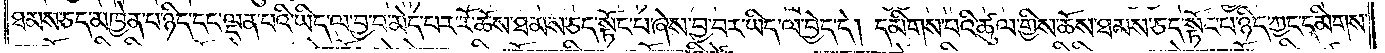ཐམས་ཅད་མཁྱེན་པ་ཉིད་དང་ལྡན་པའི་ཡིད་ལ་བྱ་བ་མེད་པར་རོ་ཆོས་ཐམས་ཅད་སྟོང་པ་ཞེས་བྱ་བར་ཡིད་ལ་བྱེད་དེ། དམིགས་པའི་ཚུལ་གྱིས་ཆོས་ཐམས་ཅད་སྟོང་པ་ཉིད་ཀྱང་དམིགས་
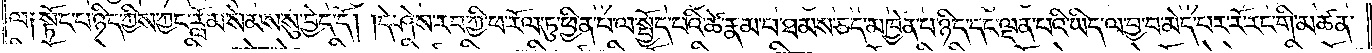ལ༑ སྟོང་པ་ཉིད་ཀྱིས་ཀྱང་རློམ་སེམས་སུ་བྱེད་དོ། །དེ་ཤེས་རབ་ཀྱི་ཕ་རོལ་ཏུ་ཕྱིན་པ་ལ་སྤྱོད་པའི་ཚེ་རྣམ་པ་ཐམས་ཅད་མཁྱེན་པ་ཉིད་དང་ལྡན་པའི་ཡིད་ལ་བྱ་བ་མེད་པར་རོ་རང་གི་མཚན་
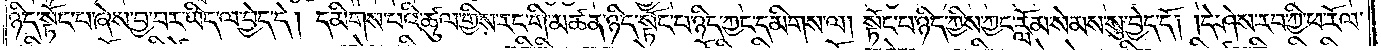ཉིད་སྟོང་པ་ཞེས་བྱ་བར་ཡིད་ལ་བྱེད་དེ། དམིགས་པའི་ཚུལ་གྱིས་རང་གི་མཚན་ཉིད་སྟོང་པ་ཉིད་ཀྱང་དམིགས་ལ། སྟོང་པ་ཉིད་ཀྱིས་ཀྱང་རློམ་སེམས་སུ་བྱེད་དོ། །དེ་ཤེས་རབ་ཀྱི་ཕ་རོལ་
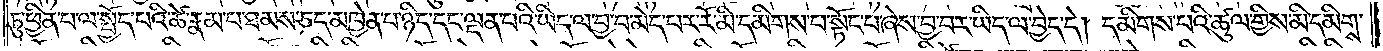ཏུ་ཕྱིན་པ་ལ་སྤྱོད་པའི་ཚེ་རྣམ་པ་ཐམས་ཅད་མཁྱེན་པ་ཉིད་དང་ལྡན་པའི་ཡིད་ལ་བྱ་བ་མེད་པར་རོ་མི་དམིགས་པ་སྟོང་པ་ཞེས་བྱ་བར་ཡིད་ལ་བྱེད་དེ། དམིགས་པའི་ཚུལ་གྱིས་མི་དམིགས་
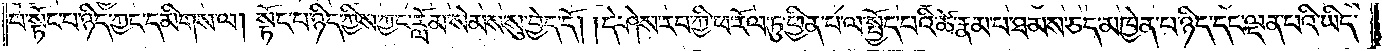པ་སྟོང་པ་ཉིད་ཀྱང་དམིགས་ལ། སྟོང་པ་ཉིད་ཀྱིས་ཀྱང་རློམ་སེམས་སུ་བྱེད་དོ། །དེ་ཤེས་རབ་ཀྱི་ཕ་རོལ་ཏུ་ཕྱིན་པ་ལ་སྤྱོད་པའི་ཚེ་རྣམ་པ་ཐམས་ཅད་མཁྱེན་པ་ཉིད་དང་ལྡན་པའི་ཡིད་
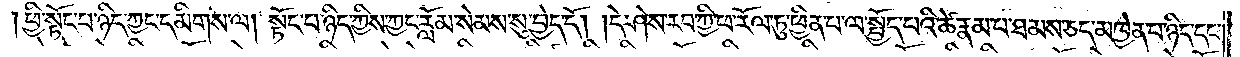ཕྱི་སྟོང་པ་ཉིད་ཀྱང་དམིགས་ལ། སྟོང་པ་ཉིད་ཀྱིས་ཀྱང་རློམ་སེམས་སུ་བྱེད་དོ། །དེ་ཤེས་རབ་ཀྱི་ཕ་རོལ་ཏུ་ཕྱིན་པ་ལ་སྤྱོད་པའི་ཚེ་རྣམ་པ་ཐམས་ཅད་མཁྱེན་པ་ཉིད་དང་
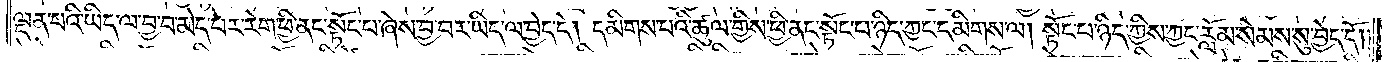ལྡན་པའི་ཡིད་ལ་བྱ་བ་མེད་པར་རེག་ཕྱི་ནང་སྟོང་པ་ཞེས་བྱ་བར་ཡིད་ལ་བྱེད་དེ། དམིགས་པའི་ཚུལ་གྱིས་ཕྱི་ནང་སྟོང་པ་ཉིད་ཀྱང་དམིགས་ལ། སྟོང་པ་ཉིད་ཀྱིས་ཀྱང་རློམ་སེམས་སུ་བྱེད་དོ༎
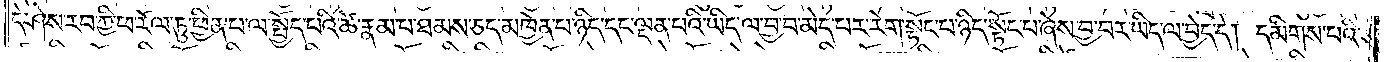དེ་ཤེས་རབ་ཀྱི་ཕ་རོལ་ཏུ་ཕྱིན་པ་ལ་སྤྱོད་པའི་ཚེ་རྣམ་པ་ཐམས་ཅད་མཁྱེན་པ་ཉིད་དང་ལྡན་པའི་ཡིད་ལ་བྱ་བ་མེད་པར་རེག་སྟོང་པ་ཉིད་སྟོང་པ་ཞེས་བྱ་བར་ཡིད་ལ་བྱེད་དེ། དམིགས་པའི་
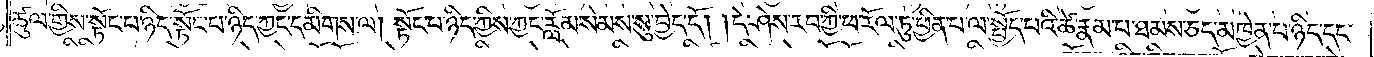ཚུལ་གྱིས་སྟོང་པ་ཉིད་སྟོང་པ་ཉིད་ཀྱང་དམིགས་ལ། སྟོང་པ་ཉིད་ཀྱིས་ཀྱང་རློམ་སེམས་སུ་བྱེད་དོ། །དེ་ཤེས་རབ་ཀྱི་ཕ་རོལ་ཏུ་ཕྱིན་པ་ལ་སྤྱོད་པའི་ཚེ་རྣམ་པ་ཐམས་ཅད་མཁྱེན་པ་ཉིད་དང་
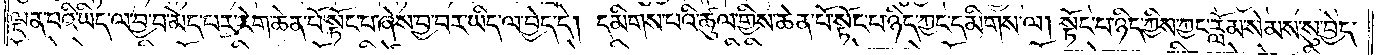ལྡན་པའི་ཡིད་ལ་བྱ་བ་མེད་པར་རེག་ཆེན་པོ་སྟོང་པ་ཞེས་བྱ་བར་ཡིད་ལ་བྱེད་དེ། དམིགས་པའི་ཚུལ་གྱིས་ཆེན་པོ་སྟོང་པ་ཉིད་ཀྱང་དམིགས་ལ། སྟོང་པ་ཉིད་ཀྱིས་ཀྱང་རློམ་སེམས་སུ་བྱེད་
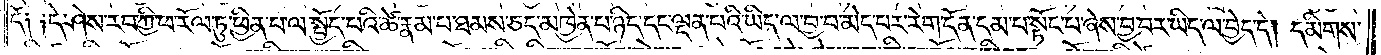དོ༑ ༑དེ་ཤེས་རབ་ཀྱི་ཕ་རོལ་ཏུ་ཕྱིན་པ་ལ་སྤྱོད་པའི་ཚེ་རྣམ་པ་ཐམས་ཅད་མཁྱེན་པ་ཉིད་དང་ལྡན་པའི་ཡིད་ལ་བྱ་བ་མེད་པར་རེག་དོན་དམ་པ་སྟོང་པ་ཞེས་བྱ་བར་ཡིད་ལ་བྱེད་དེ། དམིགས་
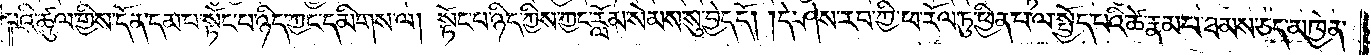པའི་ཚུལ་གྱིས་དོན་དམ་པ་སྟོང་པ་ཉིད་ཀྱང་དམིགས་ལ། སྟོང་པ་ཉིད་ཀྱིས་ཀྱང་རློམ་སེམས་སུ་བྱེད་དོ། །དེ་ཤེས་རབ་ཀྱི་ཕ་རོལ་ཏུ་ཕྱིན་པ་ལ་སྤྱོད་པའི་ཚེ་རྣམ་པ་ཐམས་ཅད་མཁྱེན་
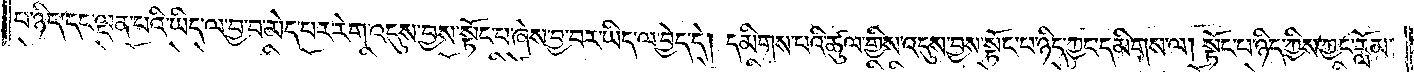པ་ཉིད་དང་ལྡན་པའི་ཡིད་ལ་བྱ་བ་མེད་པར་རེག་འདུས་བྱས་སྟོང་པ་ཞེས་བྱ་བར་ཡིད་ལ་བྱེད་དེ། དམིགས་པའི་ཚུལ་གྱིས་འདུས་བྱས་སྟོང་པ་ཉིད་ཀྱང་དམིགས་ལ། སྟོང་པ་ཉིད་ཀྱིས་ཀྱང་རློམ་
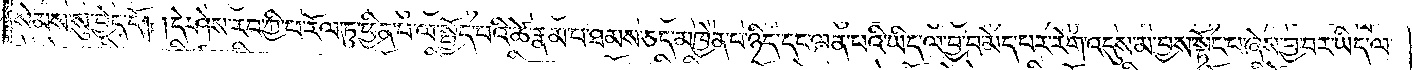སེམས་སུ་བྱེད་དོ། །དེ་ཤེས་རབ་ཀྱི་ཕ་རོལ་ཏུ་ཕྱིན་པ་ལ་སྤྱོད་པའི་ཚེ་རྣམ་པ་ཐམས་ཅད་མཁྱེན་པ་ཉིད་དང་ལྡན་པའི་ཡིད་ལ་བྱ་བ་མེད་པར་རེག་འདུས་མ་བྱས་སྟོང་པ་ཞེས་བྱ་བར་ཡིད་ལ་
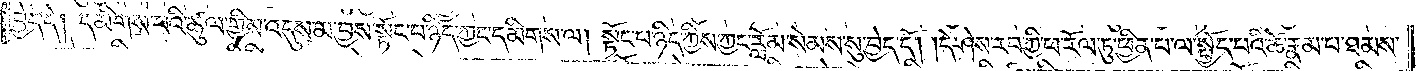བྱེད་དེ། དམིགས་པའི་ཚུལ་གྱིས་འདུས་མ་བྱས་སྟོང་པ་ཉིད་ཀྱང་དམིགས་ལ། སྟོང་པ་ཉིད་ཀྱིས་ཀྱང་རློམ་སེམས་སུ་བྱེད་དོ། །དེ་ཤེས་རབ་ཀྱི་ཕ་རོལ་ཏུ་ཕྱིན་པ་ལ་སྤྱོད་པའི་ཚེ་རྣམ་པ་ཐམས་
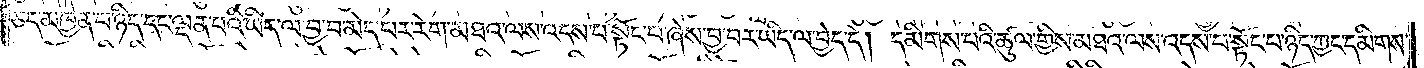ཅད་མཁྱེན་པ་ཉིད་དང་ལྡན་པའི་ཡིད་ལ་བྱ་བ་མེད་པར་རེག་མཐའ་ལས་འདས་པ་སྟོང་པ་ཞེས་བྱ་བར་ཡིད་ལ་བྱེད་དེ། དམིགས་པའི་ཚུལ་གྱིས་མཐའ་ལས་འདས་པ་སྟོང་པ་ཉིད་ཀྱང་དམིགས་
